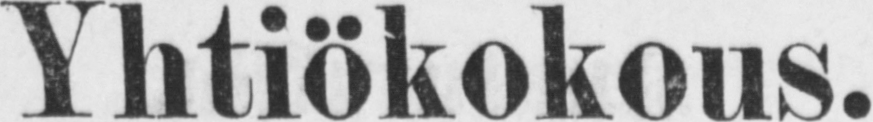Yhtiökokous.
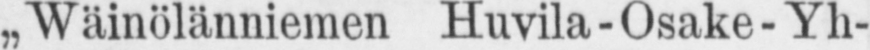„Wäinölänniemen Huvila-Osake-Yh-
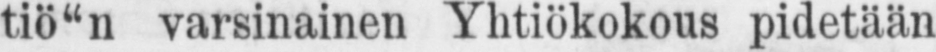tiö"n varsinainen Yhtiökokous pidetään
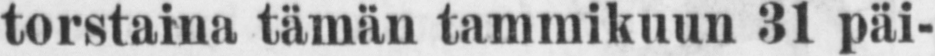torstaina tämän tammikuun 31 päi-
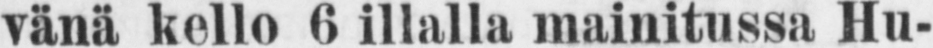vänä kello 6 illalla mainitussa Hu-
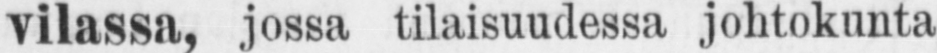vilassa, jossa tilaisuudessa johtokunta
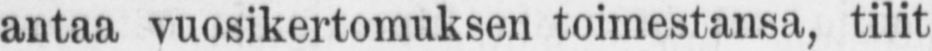antaa vuosikertomuksen toimestansa, tilit
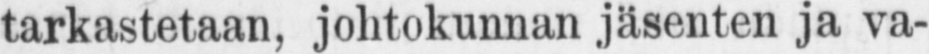tarkastetaan, johtokunnan jäsenten ja va-
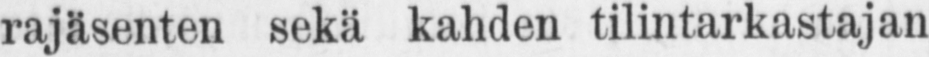rajäsenten sekä kahden tilintarkastajan
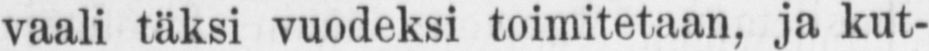vaali täksi vuodeksi toimitetaan, ja kut-
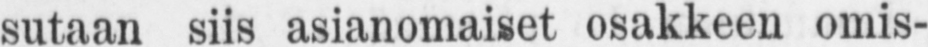sutaan siis asianomaiset osakkeen omis-
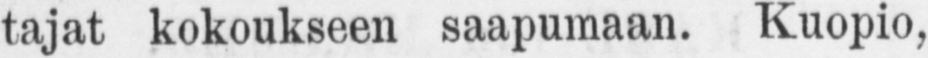tajat kokoukseen saapumaan. Kuopio,
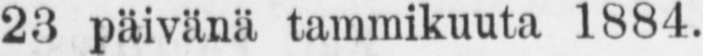23 päivänä tammikuuta 1884.
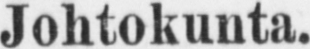Johtokunta.
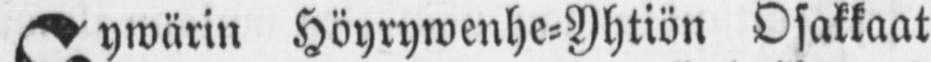Sywärin Höyrywenhe-Yhtiön Osakkaat
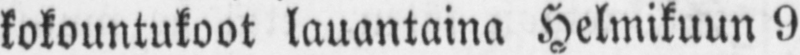kokountukoot lauantaina Helmikuun 9
